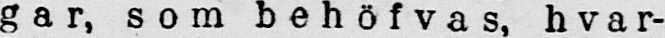gar, som behöfvas, hvar-
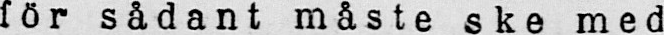för sådant måste ske med
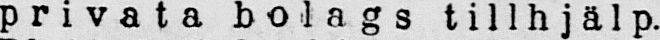privata bolags tillhjälp.
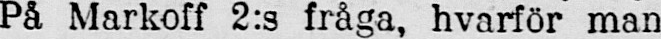På Markoff 2:s fråga, hvarför man
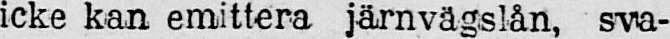icke kan emittera järnvägslån, sva-
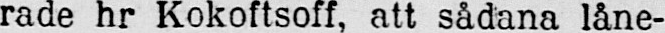rade hr Kokoftsoff, att sådana låne-
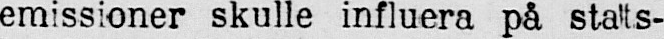emissioner skulle influera på stats-
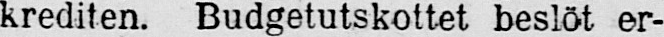krediten. Budgetutskottet beslöt er-
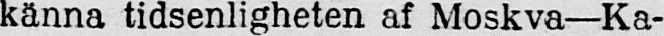känna tidsenligheten af Moskva—Ka-
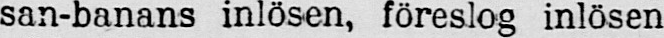san-banans inlösen, föreslog inlösen
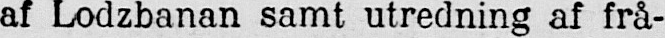af Lodzbanan samt utredning af frå-
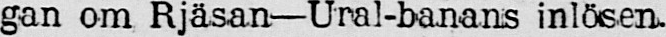gan om Rjäsan—Ural-banans inlösen.
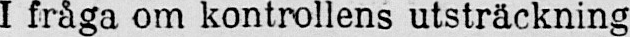I fråga om kontrollens utsträckning
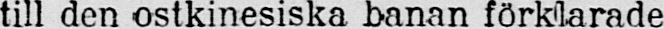till den ostkinesiska banan förklarade
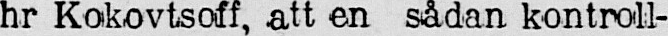hr Kokovtsoff, att en sådan kontroll-
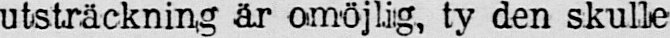utsträckning år omöjlig, ty den skulle
